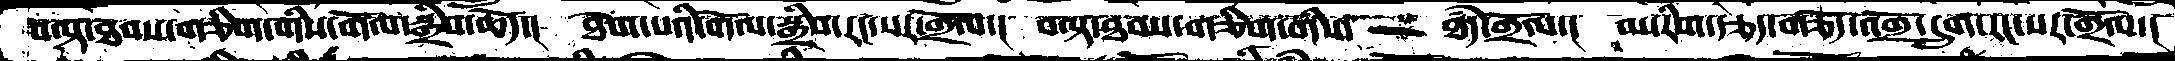བལྟ་ཐབས་གཅིག་གིས་གོལ་སྒྲིབ་ཆོད་།  ཐོག་པའི་གོལ་སྒྲིབ་རང་སར་གྲོལ་།  བལྟ་ཐབས་གཅིག་གིས་  ཐཾད་གྲོལ་།  མ་རིག་རྩད་གཅོད་འགྲོ་དྲུག་རང་སར་གྲོལ་།
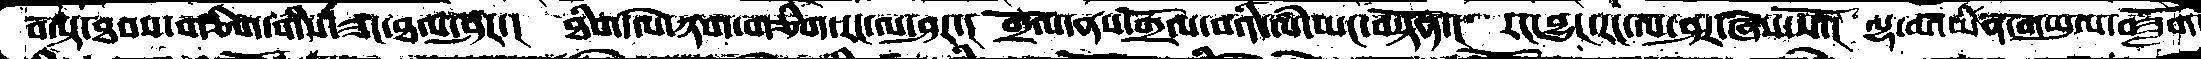བལྟ་ཐབས་གཅིག་གིས་ཟང་ཐལ་ཤར་།  ཐིག་ལེ་ཉག་གཅིག་རང་ལ་ཤར་།  གྲོལ་ནས་གྲོལ་བའི་ལཾ་ཡང་བསྟོན་།  རང་བྱུང་རང་ལ་ཤར་ཞེས་སོ་།  ལྷ་མ་ཡིན་གཡུལ་བཟློག
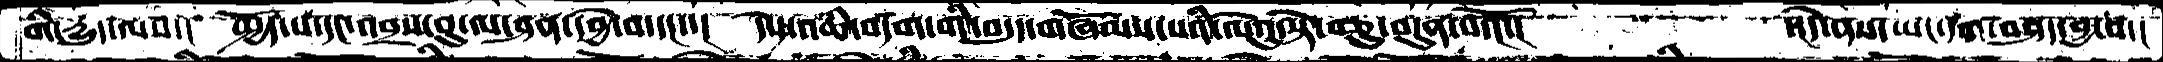གི་དྱུད་ལས་།  སྤྱོད་པ་དང་འབྲས་བུ་ལ་ཤན་དབྱེ་བ་དང་་།  དེས་འཆི་བདག་གི་བདུད་གཞོམས་པའི་ལེའུ་སྟེ་བཅུ་བདུན་པའོ་།     ་།དེ་ནས་ཡང་དག་བཤད་བྱ་བ་།
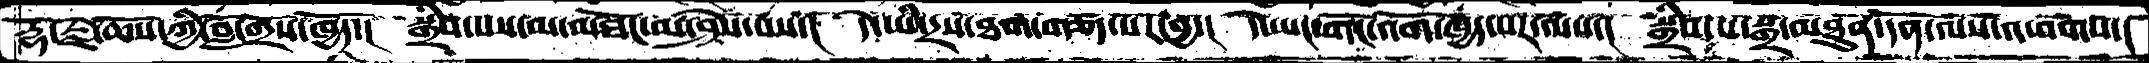རྡོ་རྗེ་ཆོས་ཀྱི་བློ་གྲོས་ཁྱོད་།  སྒྲིབ་པས་མ་མཐོང་མ་ཤེས་པས་།  དེ་ཡི་དྲས་ཐག་གཅོད་པར་བྱ་།   དེ་ཡང་གོང་འོག་ཁྱད་པར་ལས་།  སྒྲིབ་པ་སྒྲ་མཐུན་དོན་ལས་འཕགས་།
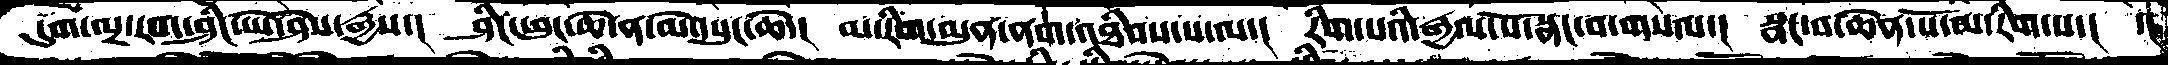དུག་ལྔ་རག་ཤིང་ཡེ་ཤེས་རྒྱས་།  ཤིང་ཕུང་ཆེ་ན་མེ་པུང་ཆེ་། མ་རིག་མུན་ནག་འཐིབས་པ་ལ་།  རིག་པའི་རྒྱལ་པོ་སྣང་བ་གསལ་།  སྣང་བ་ཆེན་པོ་མ་རིག་པ་།  ་།
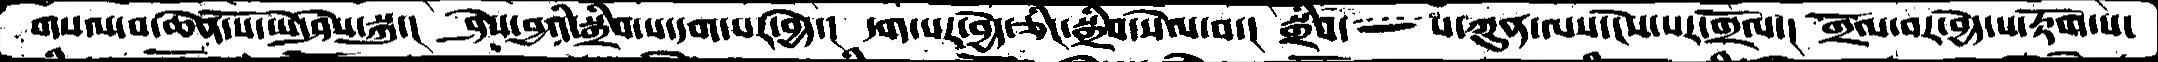གསལ་བ་ཆེན་པོ་ཡེ་ཤེས་སྐུ་།  ཤེས་བྱའི་སྒྲིབ་པ་དག་པར་བྱེད་། དག་པར་བྱེད་ཅིང་སྒྲིབ་སེལ་བ་།  སྒྲིབ་   པ་ཀུན་ལས་ངེས་པར་གྲོལ་།  གྲོལ་བར་བྱེད་པ་རྟོག་པ་
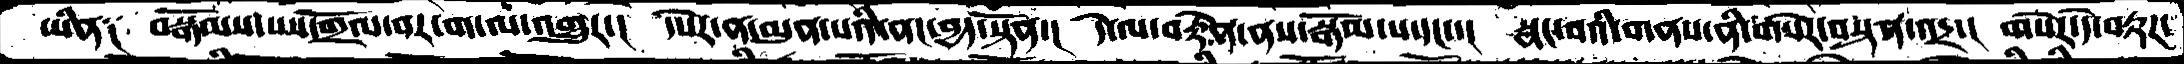ཡིན༑  བསྒོམས་པས་གྲོལ་བར་ག་ལ་འགྲུར་།  དཔེར་ན་མུན་པའི་ནང་བྱད་སྟོན་།  དེ་ལ་བརྟེན་ནས་སྒོམ་པ་དང་་།  སྣང་བའི་གནས་ནི་གསེར་བསྟན་འདྲ་།  གསེར་དེ་བརྟཌ་
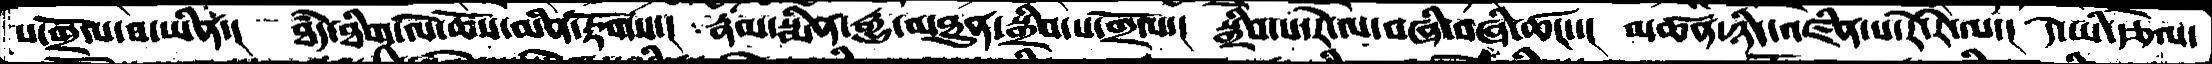པ་གྲོལ་བ་ཡིན་།  ཐཾད་ཐིག་ལེ་ཆོས་མིན་རྟོགས་།  རྣམ་སྨིན་རྒྱུ་མཐུན་སྒྲིབ་པ་གྲོལ་།  སྒྲིབ་པ་རེ་ལ་བཞི་བཞི་ཚང་་།   མཚན་ཉིད་འཛིན་པ་རེ་རེ་ལ་།  དེ་ཡི་རྩེལ་
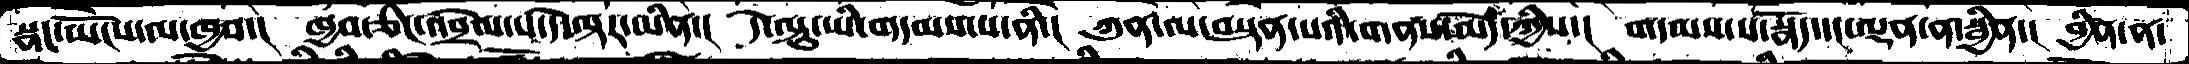སྣང་ཡོངས་ལ་ཁྱབ་།  ཁྱབ་ཅིང་འབྲེལ་པ་དེ་ལྟར་མིན་།  དེ་ལྟུ་ཡི་གདམས་པ་ནི་།  ཀུན་ལ་བསྟན་པའི་གནས་མེད་ཀྱིས་།  གདམས་པ་སྣོད་དང་ལྡན་ན་སྦྱིན་།  བྱིན་ན་
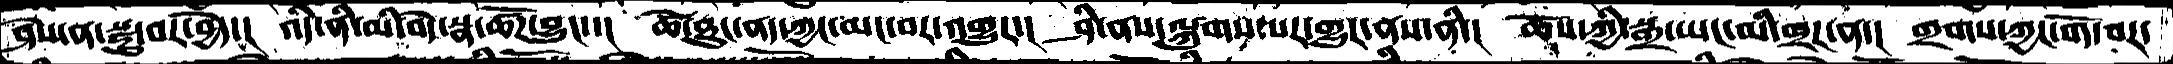ཤེས་ན་སྫུ་བར་བྱེད་།  འདི་ནི་མི་བདེ་སྣ་ཚོཌ་བྱུང་་།  ཚེ་ཐུང་ནད་ཀྱང་མང་བར་འགྱུར་།  ཤི་ནས་ལྐུགས་པར་གྱུར་ནས་ནི་།  ཆོས་ཀྱི་སྒྲ་ཡང་མི་གྲཌ་ན་།  གྲགས་ཀྱང་གོ་བར་
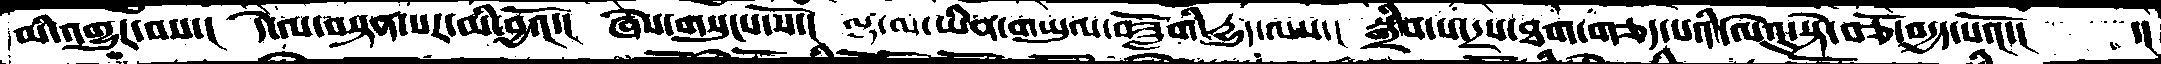མི་འགྱུར་བས་།  དེ་ལ་བསྟན་པར་མི་བྱའོ་།  ཞེས་གསུངས་སོ་།  ལྷ་་མ་ཡིན་གཡུལ་བཟློགི་དྱུད་ལས་།  སྒྲིབ་པ་དྲས་ཐག་གཅད་པའི་ལེའུ་སྟེ་བཅོ་བདྱད་་པའོ་།  ་།
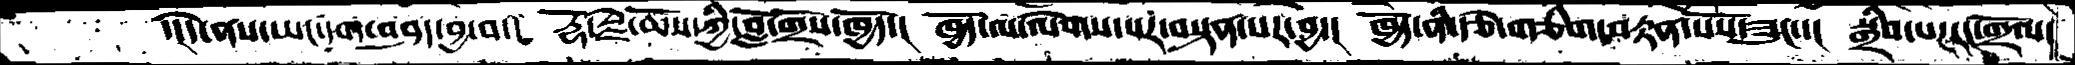་།དེ་ནས་ཡང་དག་བཤད་བྱ་བ་།  རྡོ་རྗེ་ཆོས་ཀྱི་བློ་གྲོས་ཁྱོད་།  ཁྱོད་ལ་ལེགས་པར་བསྟན་པར་བྱ་།  ཁྱོད་ནི་རྩེ་གཅིག་བརྟན་པོས་ཟུང་་།  སྒྲིབ་པར་རང་གྲོལ་
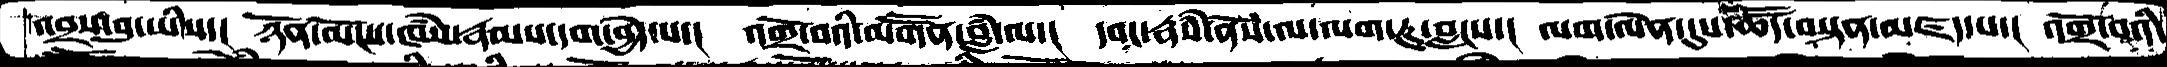འབྲས་བུ་ཡིས་།  ཉོན་མོངས་ཁཾས་རྣམས་དག་བྱེད་པ་།  འགྲོ་བའི་མགཽན་བླཾ་ལ་།  དབང་རྣཾས་ནོས་ལ་ལག་ཏུ་བླངས་།  ལག་ལེན་དུས་ཚོད་བསྟན་མཛད་པ་།  འགྲོ་བའི་
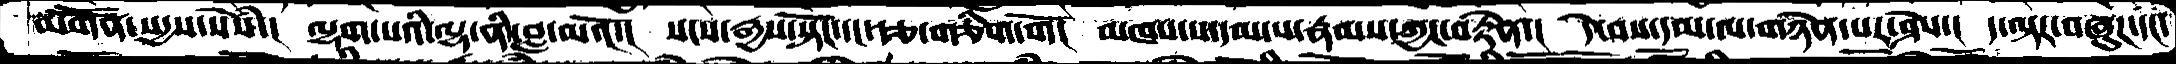མགཽན་སདྱས་སེཾས་།  ལྷག་པའི་ལྷ་ནི་བླ་མའོ་།  སངས་རྒྱས་སྟོང་དང་རྩ་གཅིག་གོ།  མཁས་པ་དམ་པ་རྣམས་ཀྱང་བརྟེན་།  དེ་བས་དམ་ལ་གཉེན་པར་ཤེས་།  ད་ལྟར་བཞུཌ་དང་
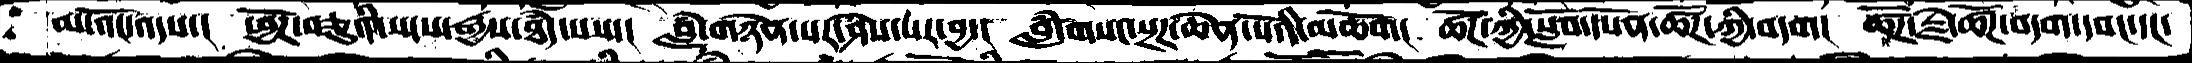མ་འོང་འདས་།  ཕྱོཌ་བཅུའི་སངས་རྒྱས་ཐདཾ་པས་།  བླཾ་གཉེན་པར་ཤེས་པར་བྱ་།  བླཾ་གསང་སྔཌ་ཆེན་པོའི་མཆོག།  ཚོཌ་ཀྱི་སློབ་དཔོན་ཚོཌ་ཀྱི་བདག།  ཚོཌ་རྗེ་ཚོཌ་བདག་དབང་དང་
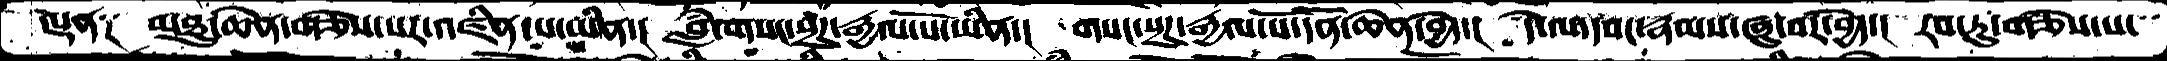ལྡན༑   མཐུ་ཆེན་གཅེས་པར་འཛིན་པ་ཡིན་།  བླཾ་གསང་སྔཾཌ་རྒྱལ་པོ་ཡིན་།  གསང་སྔཌ་རྒྱལ་པོ་དོན་ཆེན་བྱེད་།  དེ་ལ་དབང་རྣམས་ཞུ་བར་བྱེད་།  རབ་ཏུ་གཅེས་པ་
